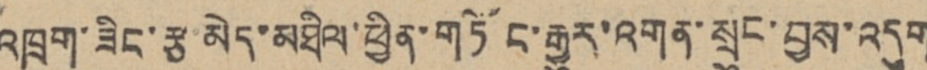འཁྲུག་ཟིང་རྩ་མེད་མཐིལ་ཕྱིན་གཏོང་རྒྱུར་འགན་སྲུང་བྱས་འདུག
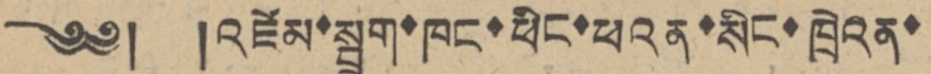༄༅། །འཛེམ་སྦྲག་ཁང་ཕྱིང་ཕའན་སིན་ཁྲེའན་
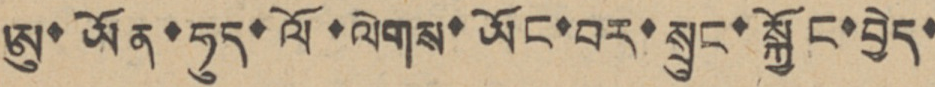ཨུ་ཡོན་ཧུད་ལོ་ལེགས་ཡོང་བར་སྲུང་སྐྱོང་བྱེད་
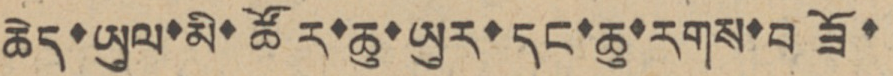ཆེད་ཡུལ་མི་ཚོར་ཆུ་ཡུར་དང་ཆུ་རགས་བཟོ་
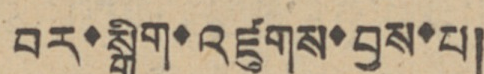བར་སྒྲིག་འཛུགས་བྱས་པ།
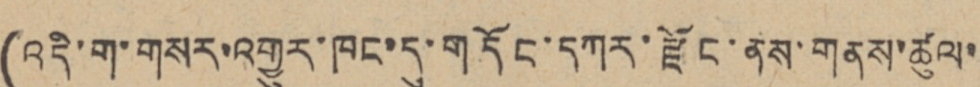(འདི་ག་གསར་འགྱུར་ཁང་དུ་གདོང་དཀར་རྫོང་ནས་གནས་ཚུལ་
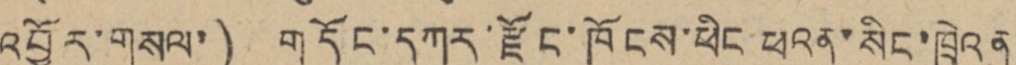འབྱོར་གསལ་) གདོང་དཀར་རྫོང་ཁོངས་ཕིང ཕའན་སིང་ཁྲེའན
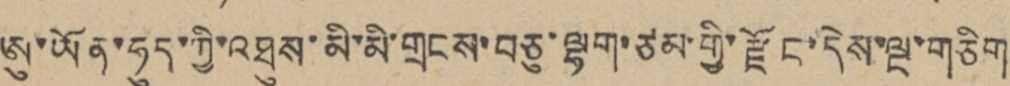ཨུ་ཡོན་ཧུད་ཀྱི་འཐུས་མི་མི་གྲངས་བཅུ་ལྷག་ཙམ་གྱི་རྫོང་དེས་ལྔ་གཅིག
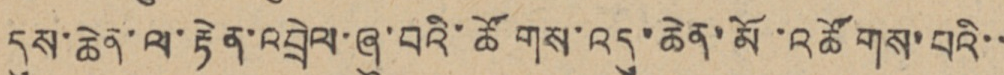དུས་ཆེན་ལ་རྟེན་འབྲེལ་ཞུ་བའི་ཚོགས་འདུ་ཆེན་མོ་འཚོགས་པའི་་
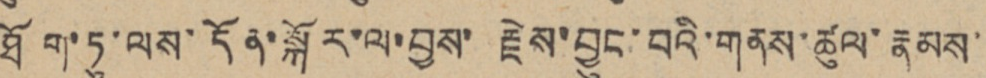ཐོག་ཏུ་ལས་དོན་སྐོར་ལ་བྱས་ རྗེས་བྱུང་བའི་གནས་ཚུལ་རྣམས་་
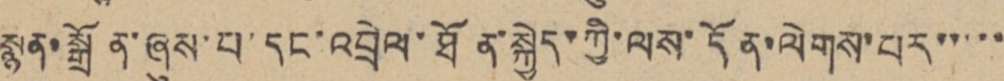སྙན་སྒྲོན་ཞུས་པ་དང་འབྲེལ་ཐོན་སྐྱེད་ཀྱི་ལས་དོན་ལེགས་པར་་་་་
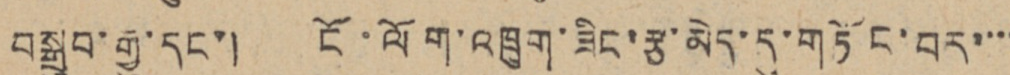བསྒྲུབ་རྒྱུ་དང་། ངོ་ལོག་འཁྲུག་ཟིང་རྩ་མེད་དུ་གཏོང་བར་་་་
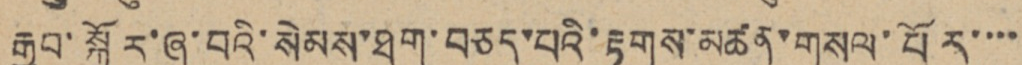རྒྱབ་སྐྱོར་ཞུ་བའི་སེམས་ཐག་བཅད་པའི་རྟགས་མཚན་གསལ་པོར་་་་
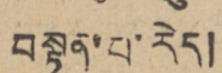བསྟན་པ་རེད།
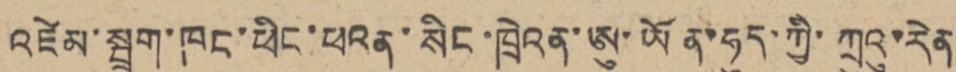འཛེམ་སྦྲག་ཁང་ཕིང་ཕའན་སིང་ཁྲེའན་ཨུ་ཡོན་ཧུད་ཀྱི་ཀྲུའུ་རེན
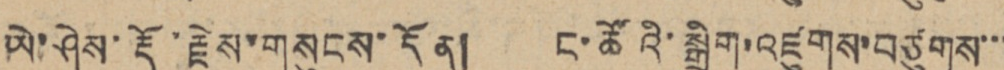ཡེ་ཤེས་རྡོ་རྗེས་གསུངས་དོན། ང་ཚོའི་སྒྲིག་འཛུགས་བཙུགས་་་
